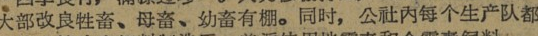大步改良牲畜、母畜、幼畜有棚。同时，公社内每个生产队都
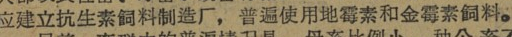应建立抗生素飼料制造厂，普遍使用地霉素和金霉素飼料。
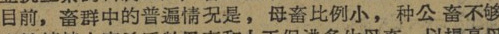目前，畜群中的普遍情况是，母畜比例小，种公 畜不够
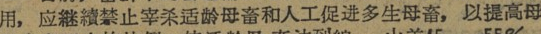用，应継續禁止宰杀适龄母畜和人工促进多生母畜，以提高母
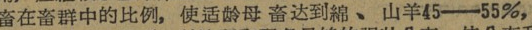畜在畜群中的比例，使适龄母畜达到綿、山羊45——55％，
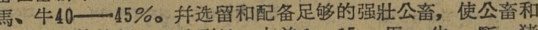馬、牛40——45％。并选留和配备足够的强壯公畜，使公畜和
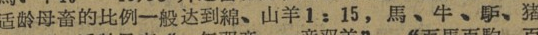适龄母畜的比例一般达到綿、山羊1：15，馬、牛、馿、猪
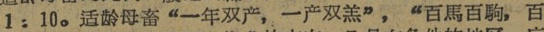1：10。适龄母畜“一年双产，一产双羔”，“百馬百驹，百
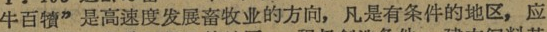牛百犢”是高速度发展畜牧业的方向，凡是有条件的地区，应
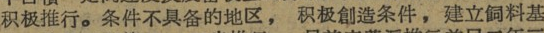积极推行。条件不具备的地区，积极創造条件，建立飼料基
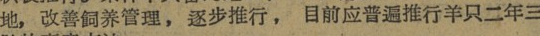地，改善飼养管理，逐步推行，目前应普遍推行羊只二年三
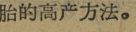胎的高产方法。
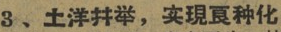3、土洋并举，实現良种化
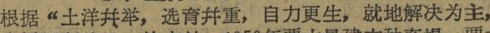根据“土洋并举，选育并重，自力更生，就地解决为主，
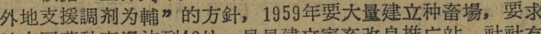外敌支援調剂为輔”的方針，1959年要大量建立种畜場，要求
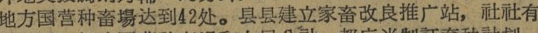地方国营种畜場达到42处。县县建立家畜改良推广站，社社有
